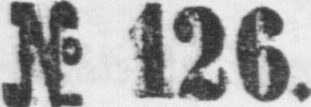No. 126.
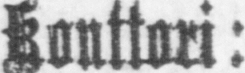Konttori:
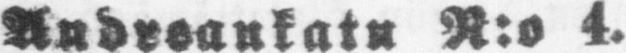Andreankatu N:o 4.
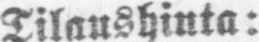Tilaushinta:
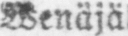Wenäjällä.
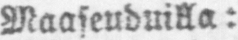Maaseuduilla:
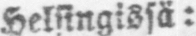Helsingissä:
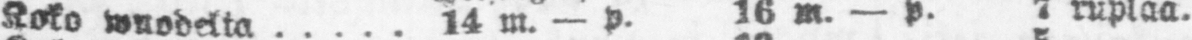Koko wuodelta 14 m. — p. 16 m. — p. 7 ruplaa.
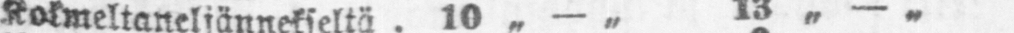Kolmeltaneljännekseltä 10 „ - „ 13 „ - „ 5 „
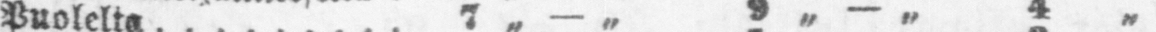Puolelta. 7 „ - „ 9 „ - „ 4 „
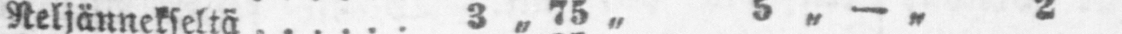Neljännekseltä 3 „ 75 „ 5 „ - „ 2 „
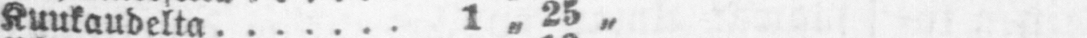Kuukaudelta. 1 „ 25
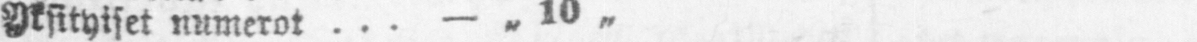Yksityiset numerot - „ 10 „
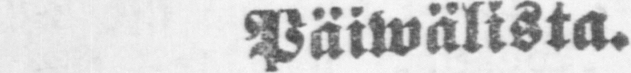Päiwälista.
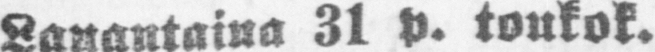Lauantaina 31 p. toukok.
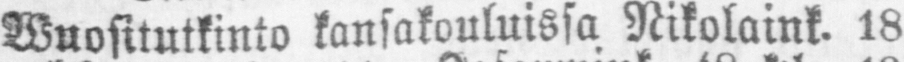Wuositutkinto kansakouluissa Nikolaink. 18
